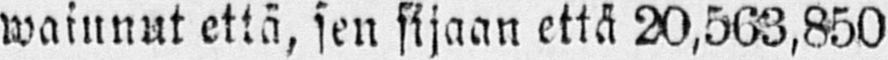wainnut että, sen sijaan että 20,563,850
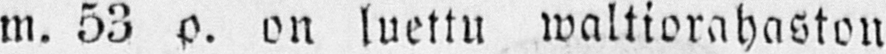m. 53 p. on luettu waltiorahaston
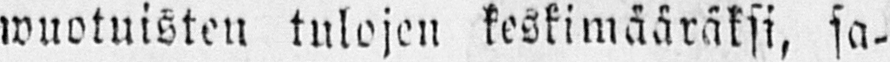wuotuisten tulojen keskimääräksi, sa-
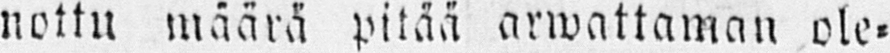nottu määrä pitää arwattaman ole-
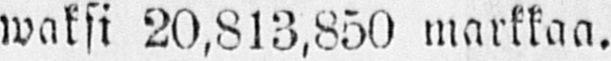waksi 20,813,850 markkaa.
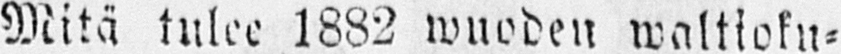Mitä tulee 1882 wuoden waltioku-
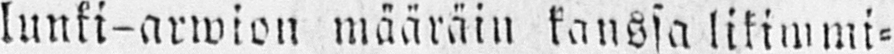lunki-arwion määräin kanssa likimmi-
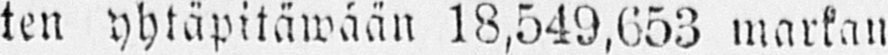ten yhtäpitäwään 18,549,653 markan
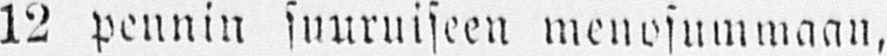12 pennin suuruiseen menosummaan,
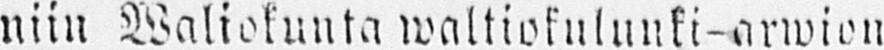niin Waliokunta waltiokulunki-arwion
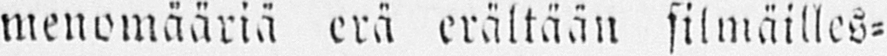menomääriä erä erältään silmäilles-
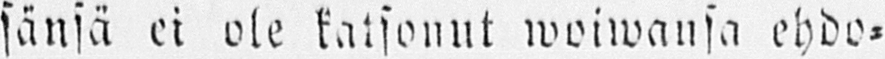sänsä ei ole katsonut woiwansa ehdo-
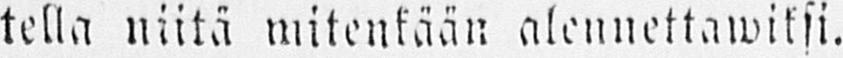tella niita mitenkään alennettawiksi.
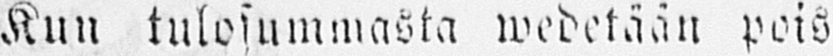Kun tulosumasta wedetään pois
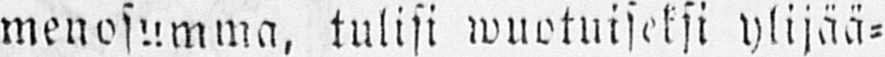menosumma, tulisi wuotuiseksi ylijää-
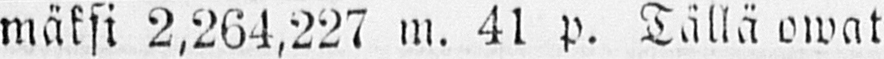mäksi 2,264,227 m. 41 p. Tällä owat
